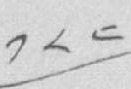༡༨༤
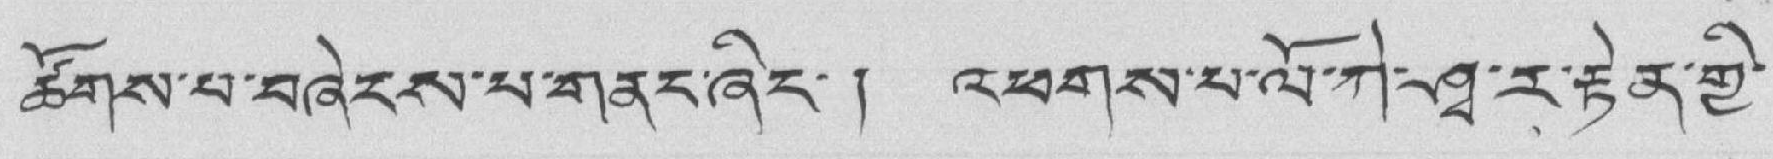ཚོགས་པ་བཞེངས་པ་གནང་ཞིང་། འཕགས་པ་ལོ་ཀེ་ཤྭ་ར་རྟེན་གྱི་
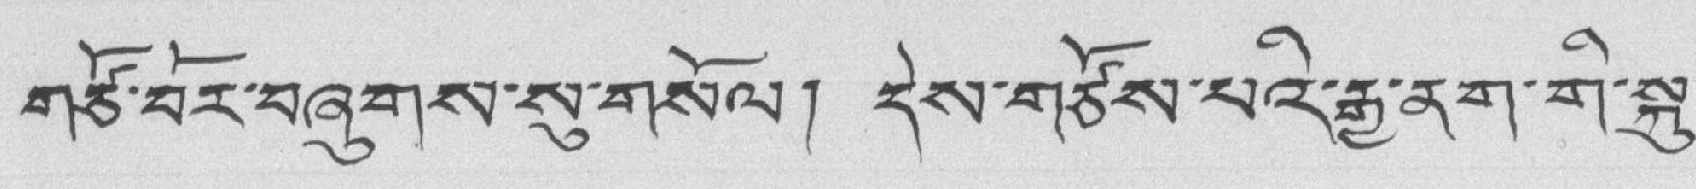གཙོ་བོར་བཞུགས་སུ་གསོལ། དེས་གཙོས་པའི་རྒྱ་ནག་གི་སྐུ་
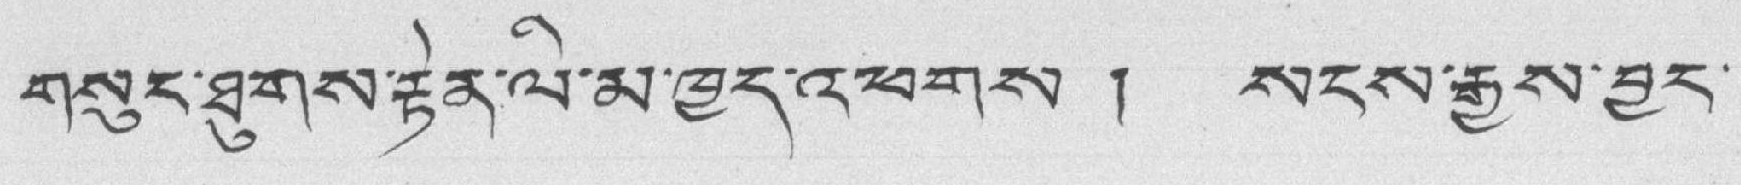གསུང་ཐུགས་རྟེན་ལི་མ་ཁྱད་འཕགས ། སངས་རྒྱས་བྱང་
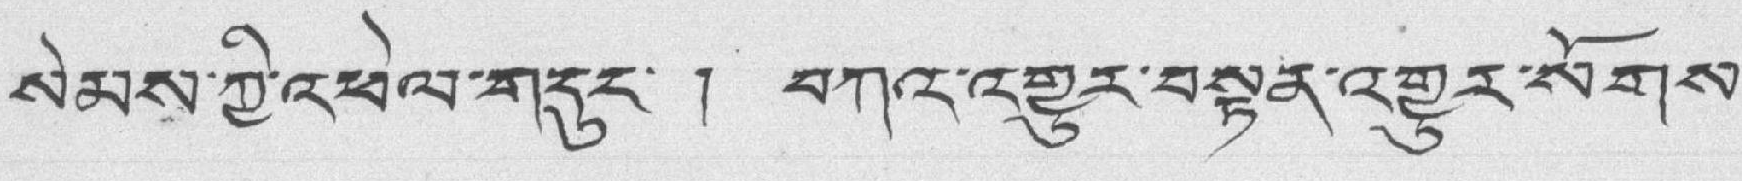སེམས་ཀྱི་འཕེལ་གདུང་ ། བཀའ་འགྱུར་བསྟན་འགྱུར་སོགས་
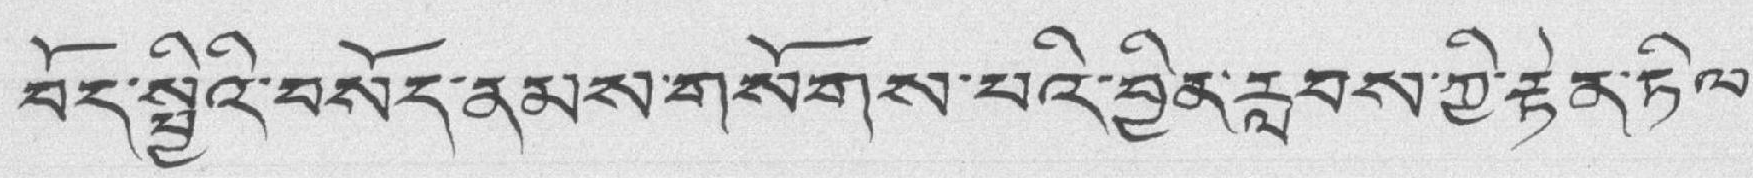བོད་སྤྱིའི་བསོད་ནམས་གསོགས་པའི་བྱིན་རླབས་ཀྱི་རྟེན་ཏིལ་
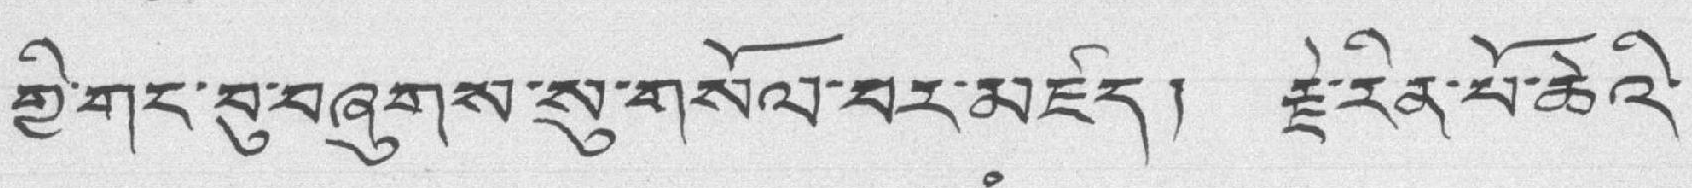གྱི་གང་བུ་བཞུགས་སུ་གསོལ་བར་མཛད། རྗེ་རིན་པོ་ཆེའི་
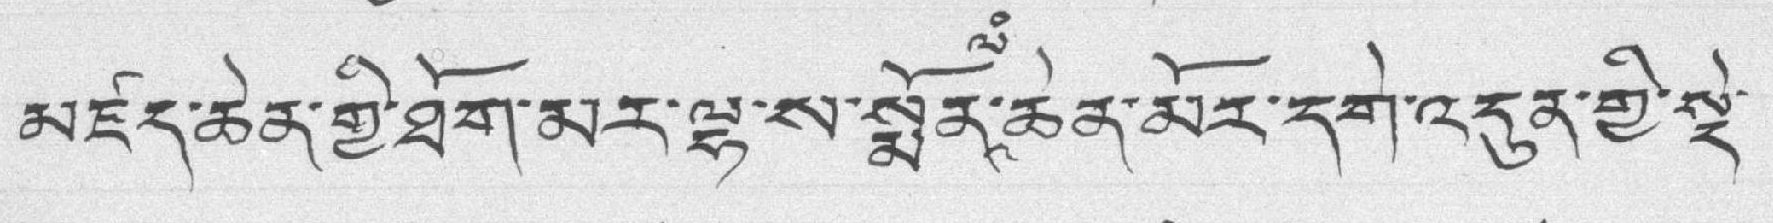མཛད་ཆེན་གྱི་ཐོག་མར་ལྷ་ས་སྨོན་ལཾ་ཆེན་མོར་དགེ་འདུན་གྱི་སྡེ་
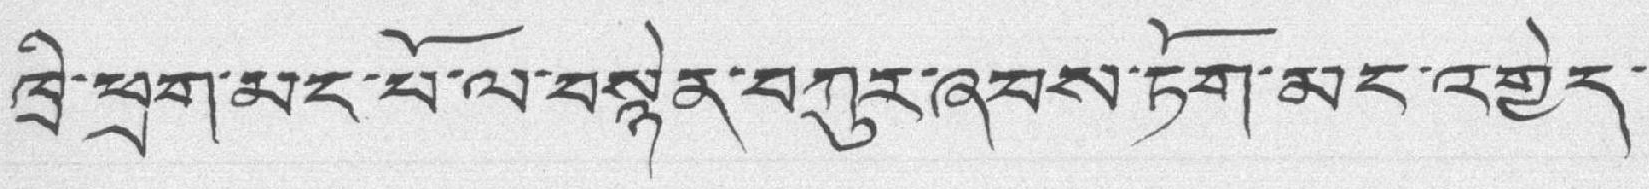ཁྲི་ཕྲག་མང་པོ་ལ་བསྙེན་བཀུར་ཞབས་ཏོག་མང་འགྱེད་
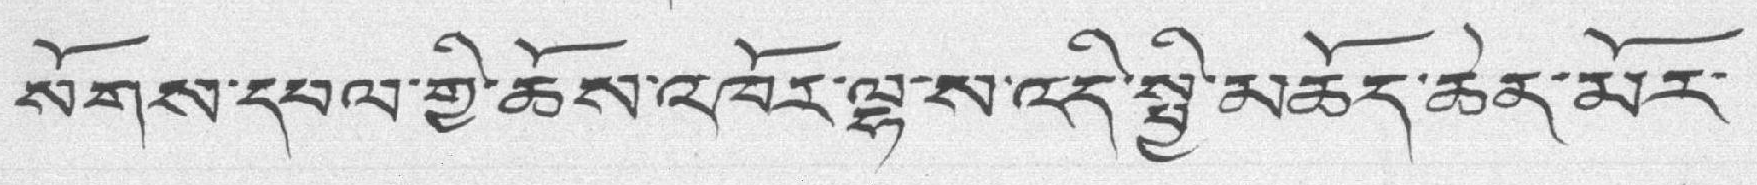སོགས་དཔལ་གྱི་ཆོས་འཁོར་ལྷ་ས་འདི་སྤྱི་མཆོད་ཆེན་མོར་
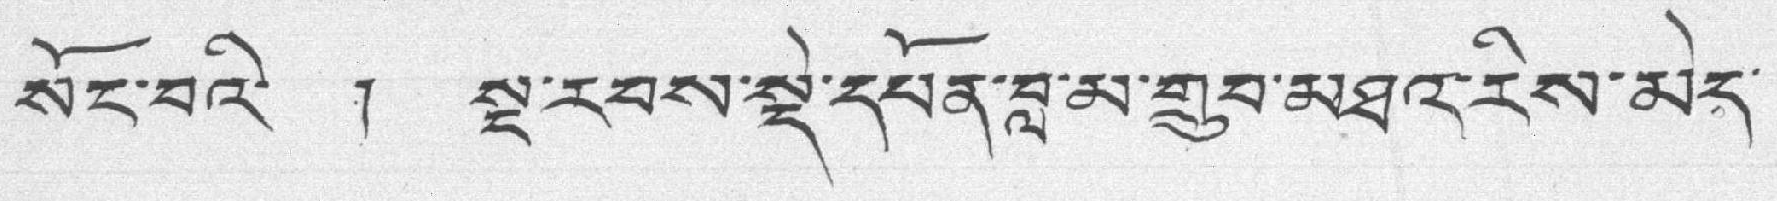སོང་བའི་ ། སྔ་རབས་སྡེ་དཔོན་བླ་མ་གྲུབ་མཐའ་རིས་མེད་
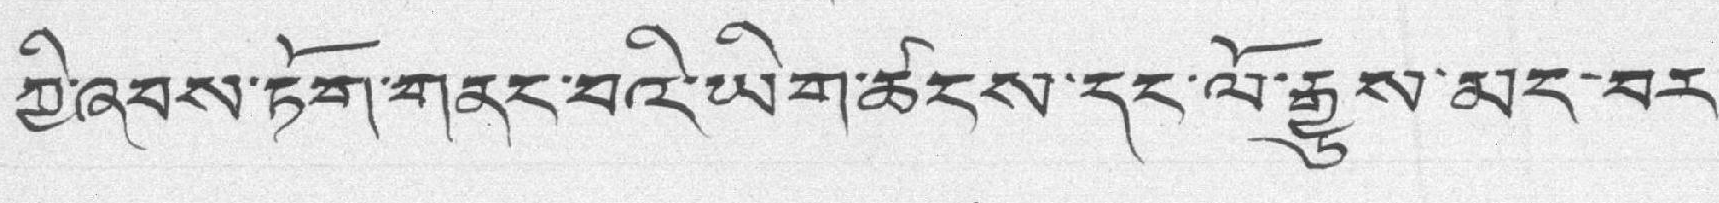ཀྱི་ཞབས་ཏོག་གནང་བའི་ཡིག་ཚངས་དང་ལོ་རྒྱུས་མང་བར་
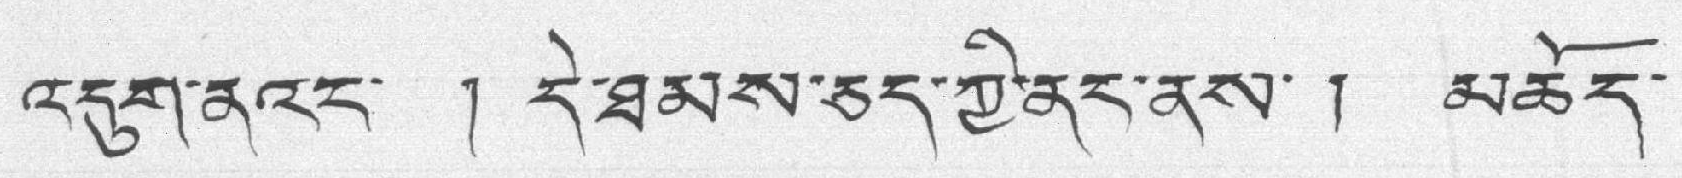འདུག་ནའང་ ། དེ་ཐམས་ཅད་ཀྱི་ནང་ནས་ ། མཆོད་
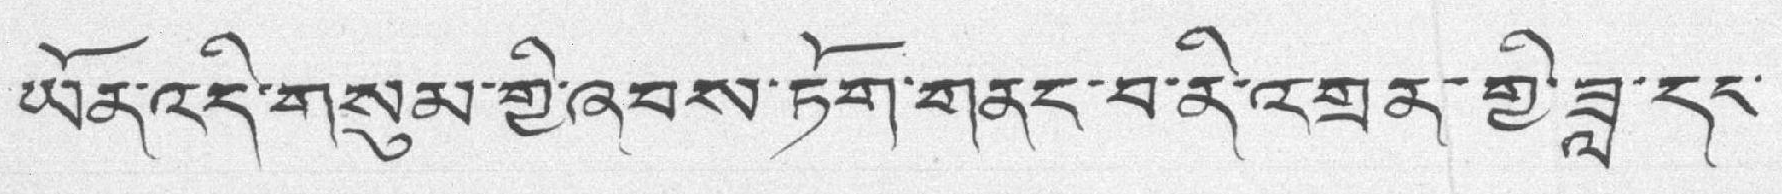ཡོན་འདི་གསུམ་གྱི་ཞབས་ཏོག་གནང་བ་ནི་འགྲན་གྱི་ཟླ་དང་
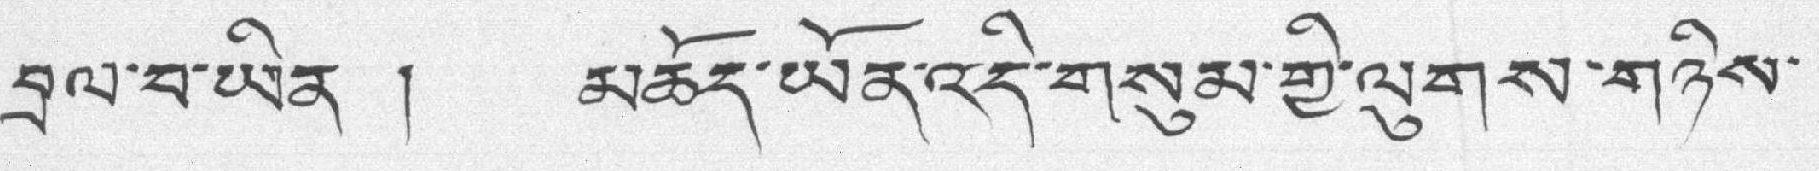བྲལ་བ་ཡིན ། མཆོད་ཡོན་འདི་གསུམ་གྱི་ལུགས་གཉིས་
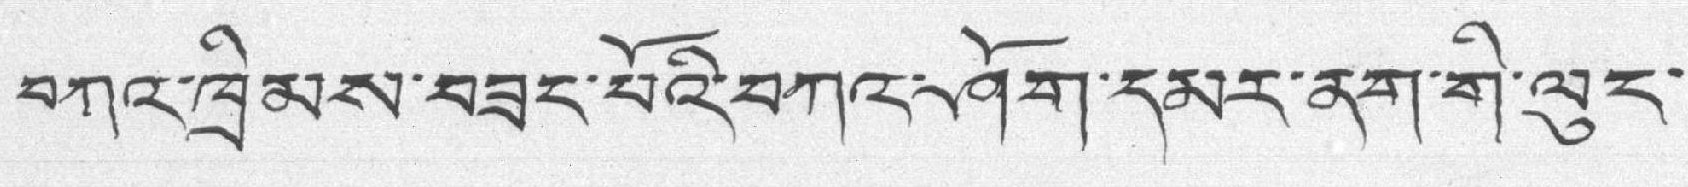བཀའ་ཁྲིམས་བཟང་པོའི་བཀའ་ཤོག་དམར་ནག་གི་ལུང་
